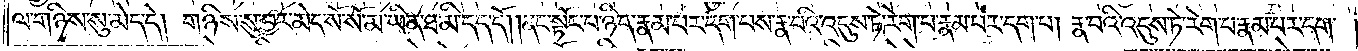ལ་གཉིས་སུ་མེད་དེ། གཉིས་སུ་བྱར་མེད་སོ་སོ་མ་ཡིན་ཐ་མི་དད་དོ། །ནང་སྟོང་པ་ཉིད་རྣམ་པར་དག་པས་རྣ་བའི་འདུས་ཏེ་རེག་པ་རྣམ་པར་དག་པ། རྣ་བའི་འདུས་ཏེ་རེག་པ་རྣམ་པར་དག་
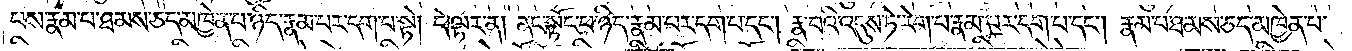པས་རྣམ་པ་ཐམས་ཅད་མཁྱེན་པ་ཉིད་རྣམ་པར་དག་པ་སྟེ། དེ་ལྟར་ན། ནང་སྟོང་པ་ཉིད་རྣམ་པར་དག་པ་དང༌། རྣ་བའི་འདུས་ཏེ་རེག་པ་རྣམ་པར་དག་པ་དང༌། རྣམ་པ་ཐམས་ཅད་མཁྱེན་པ་
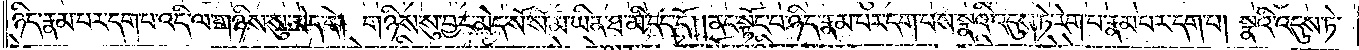ཉིད་རྣམ་པར་དག་པ་འདི་ལ་གཉིས་སུ་མེད་དེ། གཉིས་སུ་བྱར་མེད་སོ་སོ་མ་ཡིན་ཐ་མི་དད་དོ། །ནང་སྟོང་པ་ཉིད་རྣམ་པར་དག་པས་སྣའི་འདུས་ཏེ་རེག་པ་རྣམ་པར་དག་པ། སྣའི་འདུས་ཏེ་
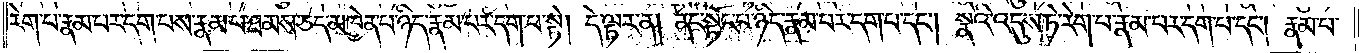རེག་པ་རྣམ་པར་དག་པས་རྣམ་པ་ཐམས་ཅད་མཁྱེན་པ་ཉིད་རྣམ་པར་དག་པ་སྟེ། དེ་ལྟར་ན། ནང་སྟོང་པ་ཉིད་རྣམ་པར་དག་པ་དང༌། སྣའི་འདུས་ཏེ་རེག་པ་རྣམ་པར་དག་པ་དང༌། རྣམ་པ་
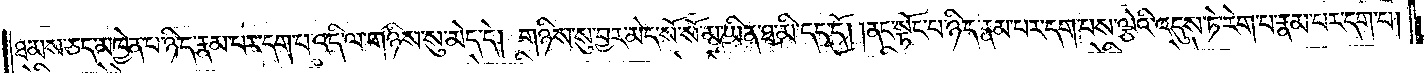ཐམས་ཅད་མཁྱེན་པ་ཉིད་རྣམ་པར་དག་པ་འདི་ལ་གཉིས་སུ་མེད་དེ། གཉིས་སུ་བྱར་མེད་སོ་སོ་མ་ཡིན་ཐ་མི་དད་དོ། །ནང་སྟོང་པ་ཉིད་རྣམ་པར་དག་པས་ལྕེའི་འདུས་ཏེ་རེག་པ་རྣམ་པར་དག་པ།
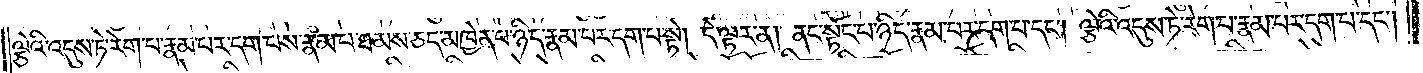ལྕེའི་འདུས་ཏེ་རེག་པ་རྣམ་པར་དག་པས་རྣམ་པ་ཐམས་ཅད་མཁྱེན་པ་ཉིད་རྣམ་པར་དག་པ་སྟེ། དེ་ལྟར་ན་ནང་སྟོང་པ་ཉིད་རྣམ་པར་དག་པ་དང༌། ལྕེའི་འདུས་ཏེ་རེག་པ་རྣམ་པར་དག་པ་དང༌།
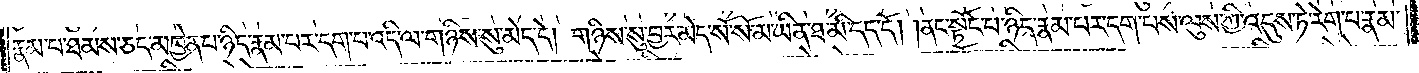རྣམ་པ་ཐམས་ཅད་མཁྱེན་པ་ཉིད་རྣམ་པར་དག་པ་འདི་ལ་གཉིས་སུ་མེད་དེ། གཉིས་སུ་བྱར་མེད་སོ་སོ་མ་ཡིན་ཐ་མི་དད་དོ། །ནང་སྟོང་པ་ཉིད་རྣམ་པར་དག་པས་ལུས་ཀྱི་འདུས་ཏེ་རེག་པ་རྣམ་
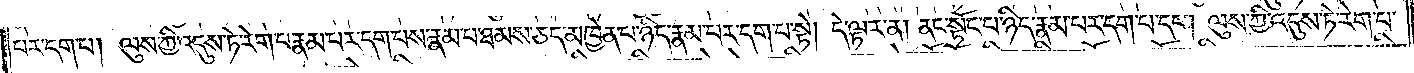པར་དག་པ། ལུས་ཀྱི་འདུས་ཏེ་རེག་པ་རྣམ་པར་དག་པས་རྣམ་པ་ཐམས་ཅད་མཁྱེན་པ་ཉིད་རྣམ་པར་དག་པ་སྟེ། དེ་ལྟར་ན། ནང་སྟོང་པ་ཉིད་རྣམ་པར་དག་པ་དང༌། ལུས་ཀྱི་འདུས་ཏེ་རེག་པ་
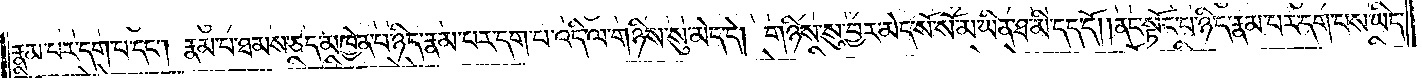རྣམ་པར་དག་པ་དང༌། རྣམ་པ་ཐམས་ཅད་མཁྱེན་པ་ཉིད་རྣམ་པར་དག་པ་འདི་ལ་གཉིས་སུ་མེད་དེ། གཉིས་སུ་བྱར་མེད་སོ་སོ་མ་ཡིན་ཐ་མི་དད་དོ། །ནང་སྟོང་པ་ཉིད་རྣམ་པར་དག་པས་ཡིད་
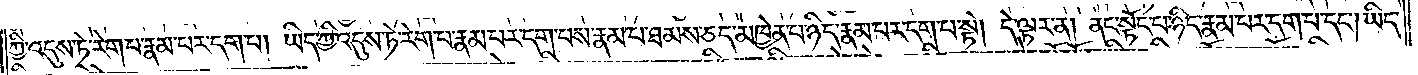ཀྱི་འདུས་ཏེ་རེག་པ་རྣམ་པར་དག་པ། ཡིད་ཀྱི་འདུས་ཏེ་རེག་པ་རྣམ་པར་དག་པས་རྣམ་པ་ཐམས་ཅད་མཁྱེན་པ་ཉིད་རྣམ་པར་དག་པ་སྟེ། དེ་ལྟར་ན། ནང་སྟོང་པ་ཉིད་རྣམ་པར་དག་པ་དང༌། ཡིད་
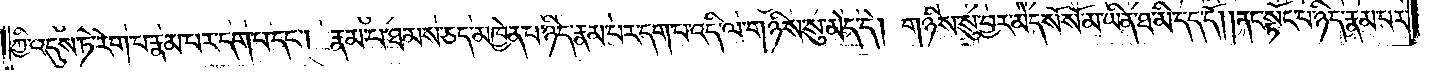ཀྱི་འདུས་ཏེ་རེག་པ་རྣམ་པར་དག་པ་དང༌། རྣམ་པ་ཐམས་ཅད་མཁྱེན་པ་ཉིད་རྣམ་པར་དག་པ་འདི་ལ་གཉིས་སུ་མེད་དེ། གཉིས་སུ་བྱར་མེད་སོ་སོ་མ་ཡིན་ཐ་མི་དད་དོ། །ནང་སྟོང་པ་ཉིད་རྣམ་པར་
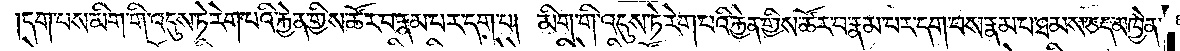དག་པས་མིག་གི་འདུས་ཏེ་རེག་པའི་རྐྱེན་གྱིས་ཚོར་བ་རྣམ་པར་དག་པ། མིག་གི་འདུས་ཏེ་རེག་པའི་རྐྱེན་གྱིས་ཚོར་བ་རྣམ་པར་དག་པས་རྣམ་པ་ཐམས་ཅད་མཁྱེན་
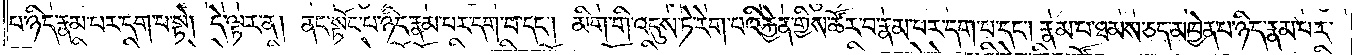པ་ཉིད་རྣམ་པར་དག་པ་སྟེ། དེ་ལྟར་ན་ནང་སྟོང་པ་ཉིད་རྣམ་པར་དག་པ་དང༌། མིག་གི་འདུས་ཏེ་རེག་པའི་རྐྱེན་གྱིས་ཚོར་བ་རྣམ་པར་དག་པ་དང༌། རྣམ་པ་ཐམས་ཅད་མཁྱེན་པ་ཉིད་རྣམ་པར་
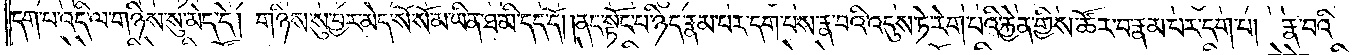དག་པ་འདི་ལ་གཉིས་སུ་མེད་དེ། གཉིས་སུ་བྱར་མེད་སོ་སོ་མ་ཡིན་ཐ་མི་དད་དོ། །ནང་སྟོང་པ་ཉིད་རྣམ་པར་དག་པས་རྣ་བའི་འདུས་ཏེ་རེག་པའི་རྐྱེན་གྱིས་ཚོར་བ་རྣམ་པར་དག་པ། རྣ་བའི་
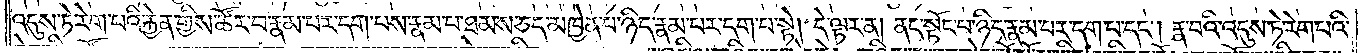འདུས་ཏེ་རེག་པའི་རྐྱེན་གྱིས་ཚོར་བ་རྣམ་པར་དག་པས་རྣམ་པ་ཐམས་ཅད་མཁྱེན་པ་ཉིད་རྣམ་པར་དག་པ་སྟེ། དེ་ལྟར་ན། ནང་སྟོང་པ་ཉིད་རྣམ་པར་དག་པ་དང༌། རྣ་བའི་འདུས་ཏེ་རེག་པའི་
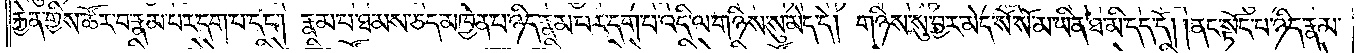རྐྱེན་གྱིས་ཚོར་བ་རྣམ་པར་དག་པ་དང༌། རྣམ་པ་ཐམས་ཅད་མཁྱེན་པ་ཉིད་རྣམ་པར་དག་པ་འདི་ལ་གཉིས་སུ་མེད་དེ། གཉིས་སུ་བྱར་མེད་སོ་སོ་མ་ཡིན་ཐ་མི་དད་དོ། །ནང་སྟོང་པ་ཉིད་རྣམ་
